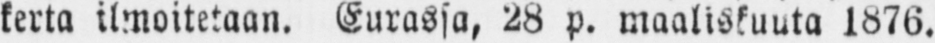kerta ilmoitetaan. Eurassa, 28 p. maaliskuuta 1876.
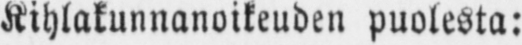Kihlakunnanoikeuden puolesta:
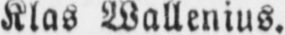Klas Wallenius.
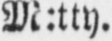M:tty.
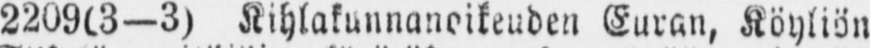2209(3—3) Kihlakunnanoikeuden Euran, Köyliön
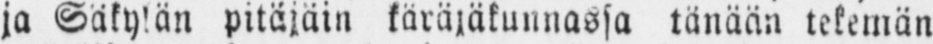ja Säkylän pitäjäin käräjäkunnassa tänään tekemän
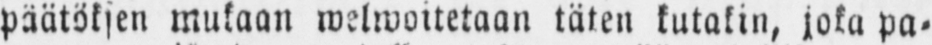päätöksen mukaan welwoittetaan täten kutakin, joka pa-
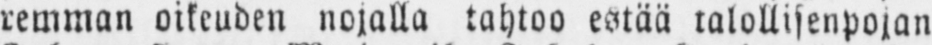remman oikeuden nojalla tahtoo estää talollisenpojan
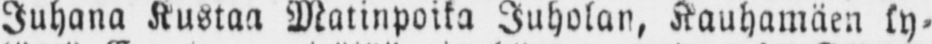Juhana Kustaa Matinpoika Juholan, Kauhamäen ky-
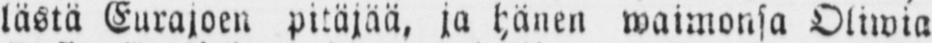lästä Eurajoen pitäjää, ja hänen waimonsa Oliwia
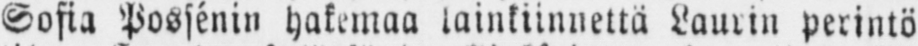Sofia Possénin hakemaa lainkiinnettä Laurin perintö
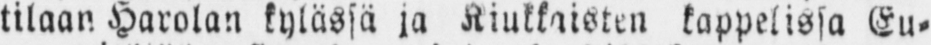tilaan Harolan kylässä ja Kiukkaisten kappelissa Eu-
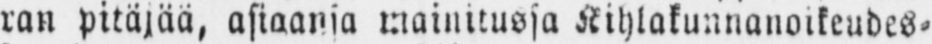ran pitäjää, asiaansa mainitussa Kihlakunnanoikeudes-
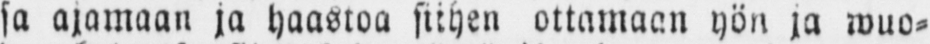sa ajamaan ja haastoa siihen ottamaan yön ja wuo-
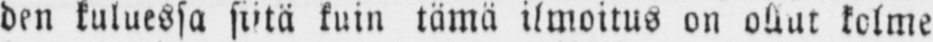den kuluessa siitä kuin tämä ilmoitus on ollut kolme
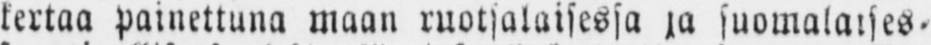kertaa painettuna maan ruotsalaisessa ja suomalaises-
